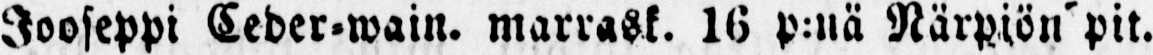Jooseppi Ceder-wain. marrask. 16 p:nä Närpiön pit.
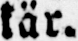tär.
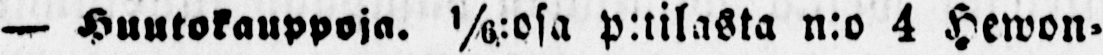— Huutokauppoja, ⅙:osa p:tilasta n:o 4 Hewon-
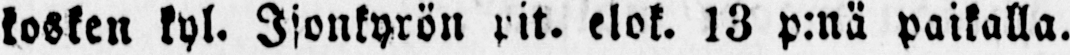kosken kpl. Isonkyrön pit. elok. 13 p.nä paikalla.
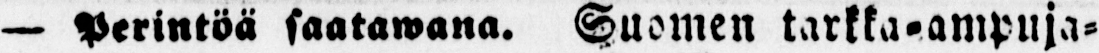— Perintöä saatawana. Suomen tarkka-ampuja-
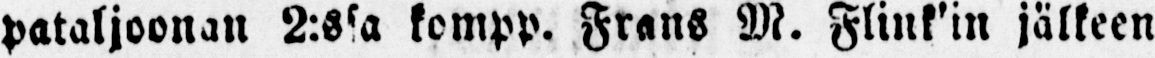pataljoonan 2:ssa kompp. Frans M. Flink’ in jälkeen
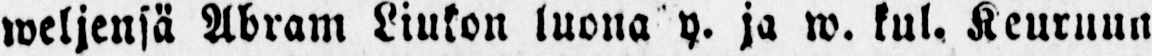weljensä Abram Liukon luona y. ja w. kul, Keuruun
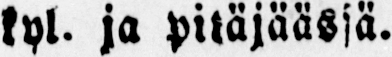kpl. ja pitäjäässä.
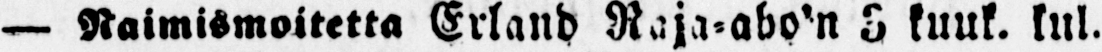— Naimismoitetta Erland Raja-aho’ n 3 kuuk. kul.
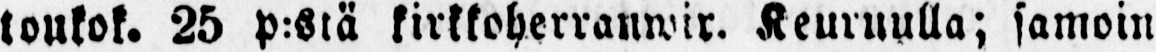toukok. 25 p:stä kirkkoherranwir. Keuruulla; samoin
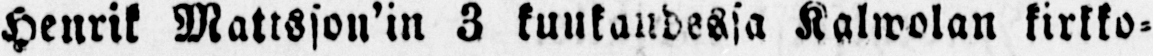Henrik Mattsson’ in 3 kuukaudessa Kalwolan kirkko-
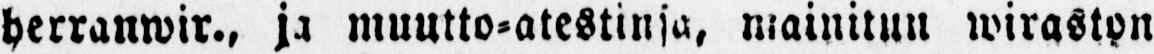herranwir., ja muutto-atestinsa, mainitun wiraston
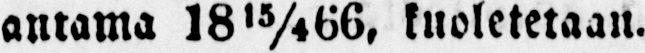antama 1815/466, kuoletetaan.
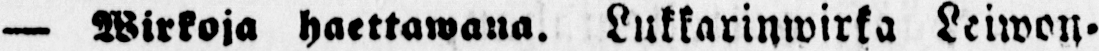— Wirkoja haettawana. Lukkarinwirka Leiwon-
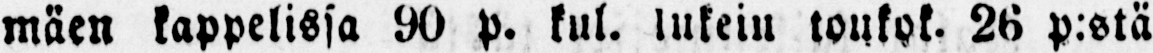mäen kappelissa 80 p. kul. lukein loukok. 26 p:stä
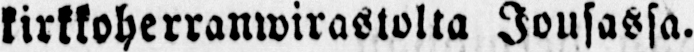kirkkoherranwirastolta Jousassa.
